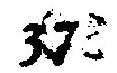37
